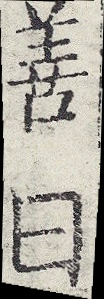善曰
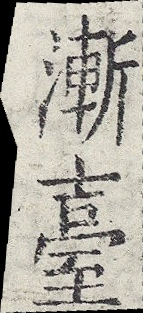漸臺
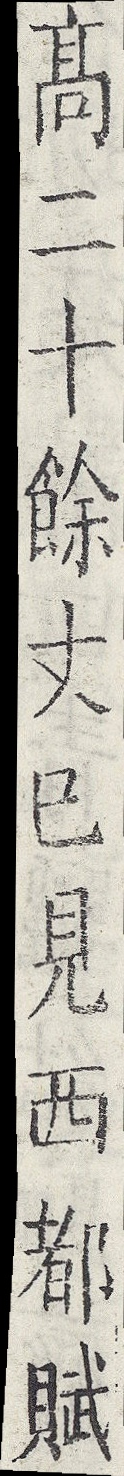高二十餘丈已見西都賦
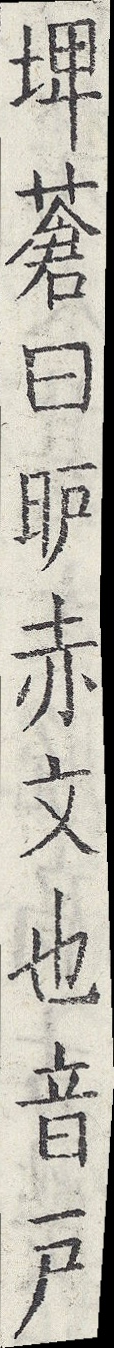埤蒼曰昈赤文也音戶
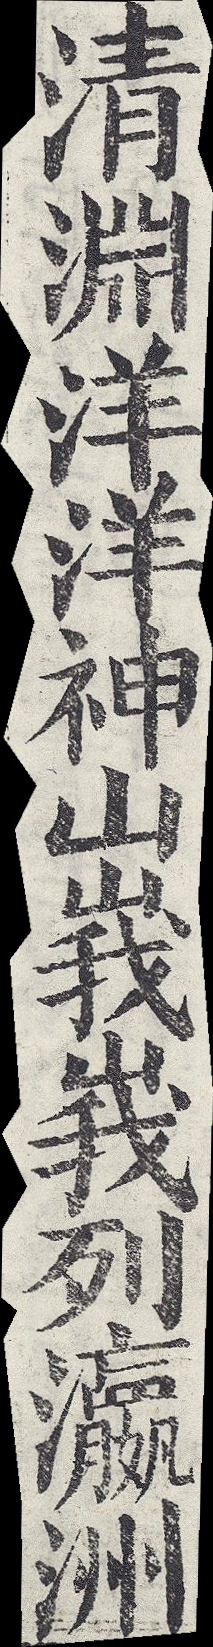清淵洋洋神山峩峩列瀛洲
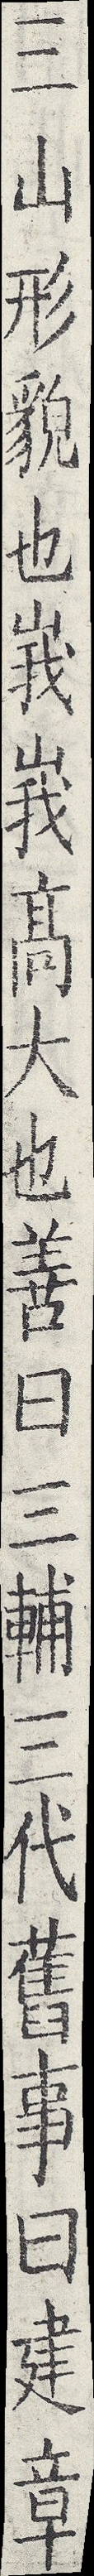三山形貌也峩峩高大也善曰三輔三代舊事曰建章
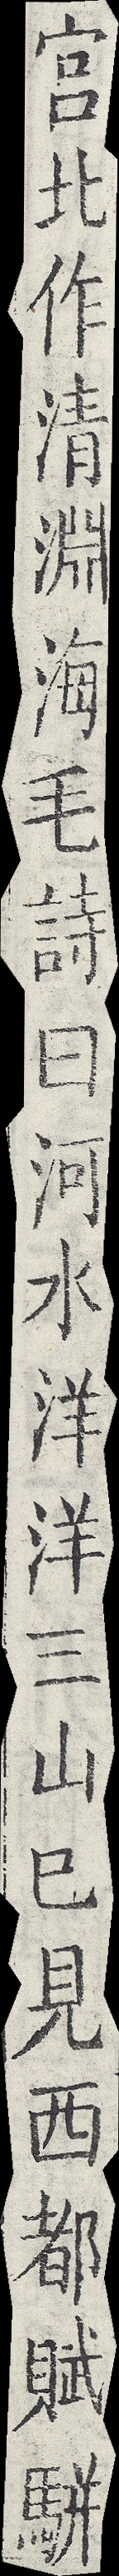宮北作清淵海毛詩曰河水洋洋三山已見西都賦駢
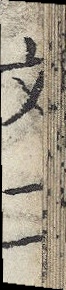文二
